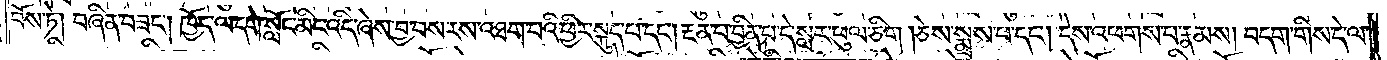བོས་ཏེ། བཞིན་བཟང༌། ཁྱོད་ལ་དགེ་སློང་མིང་འདི་ཞེས་བྱ་བས་རས་འཐག་པའི་ཕྱིར་སྐུད་པ་དང༌། རྔན་པ་བྱིན་པ་དེ་སླར་ཕུལ་ཅིག །ཅེས་སྨྲས་པ་དང༌། དེས་འཕགས་པ་རྣམས། བདག་གིས་དེ་ལ་
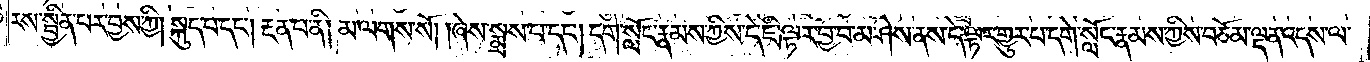རས་སྦྱིན་པར་བྱས་ཀྱི། སྐུད་པ་དང༌། རྔན་པ་ནི། མ་ལགས་སོ། །ཞེས་སྨྲས་པ་དང༌། དགེ་སློང་རྣམས་ཀྱིས་དེ་ཇི་ལྟར་བྱ་བ་མ་ཤེས་ནས་དེ་ལྟར་གྱུར་པ་དགེ་སློང་རྣམས་ཀྱིས་བཅོམ་ལྡན་འདས་ལ་
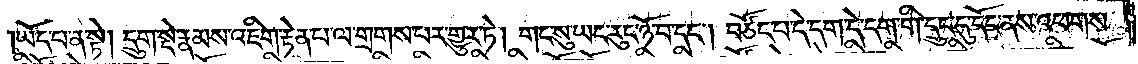ཡོད་པ་ན་སྟེ། དྲུག་སྡེ་རྣམས་འཇིག་རྟེན་པ་ལ་གྲགས་པར་གྱུར་ཏེ། གང་སུ་ཡང་རུང་ཉོ་བ་དང༌། བཙོང་པ་དེ་དག་དེ་དག་གི་དྲུང་དུ་དོང་ནས་འཕགས་
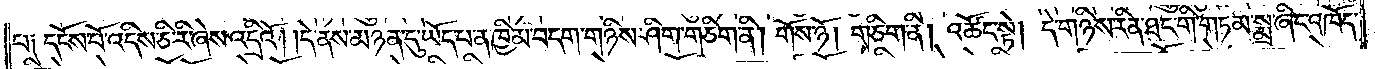པ༑ དངོས་པོ་འདིས་ཅི་རི་ཞེས་འདྲིའོ། །དེ་ནས་མཉན་དུ་ཡོད་པ་ན་ཁྱིམ་བདག་གཉིས་ཤིག་གཅིག་ནི། གོས་ཉོ། གཅིག་ནི། འཚོང་སྟེ། དེ་གཉིས་རིན་ཐང་གི་གཏམ་སྨྲ་ཞིང་འཁོད་
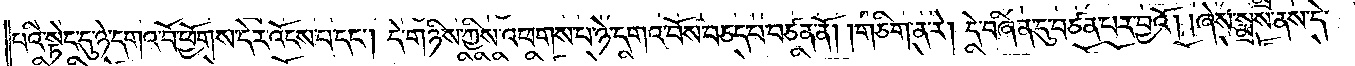པའི་སྟེང་དུ་ཉེ་དགའ་བོ་ཕྱོགས་དེར་འོངས་པ་དང༌། དེ་གཉིས་ཀྱིས་འཕགས་པ་ཉེ་དགའ་བོས་བཅད་པ་བཙན་ནོ། །གཅིག་ན་རེ། དེ་བཞིན་དུ་བཙན་པར་བྱའོ། །ཞེས་སྨྲས་ནས་དེ་
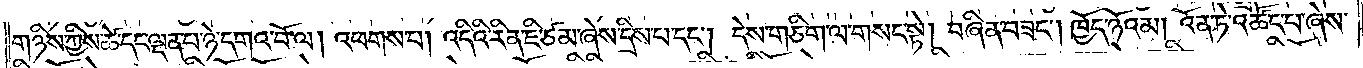གཉིས་ཀྱིས་ཚེ་དང་ལྡན་པ་ཉེ་དགའ་བོ་ལ། འཕགས་པ། འདིའི་རིན་ཇི་ཙམ་ཞེས་དྲིས་པ་དང༌། དེས་གཅིག་ལ་གསང་སྟེ། བཞིན་བཟང༌། ཁྱོད་ཉོའམ། འོན་ཏེ་འཚོང་པ་ཞེས་
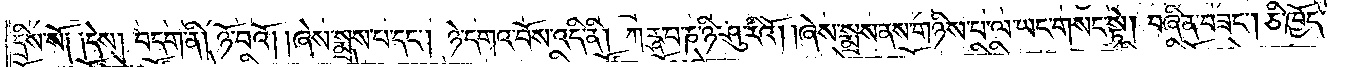དྲིས་སོ༑ ༑དེས། བདག་ནི། ཉོ་བའོ། །ཞེས་སྨྲས་པ་དང༌། ཉེ་དགའ་བོས་འདི་ནི། ཀཪྴ་པ་ཎ་ཉི་ཤུ་རིའོ། །ཞེས་སྨྲས་ནས་གཉིས་པ་ལ་ཡང་གསང་སྟེ། བཞིན་བཟང༌། ཅི་ཁྱོད་
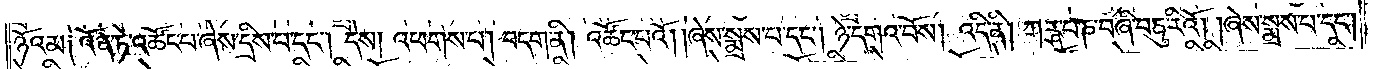ཉོའམ༑ འོན་ཏེ་འཚོང་པ་ཞེས་དྲིས་པ་དང༌། དེས། འཕགས་པ། བདག་ནི། འཚོང་པའོ། །ཞེས་སྨྲས་པ་དང༌། ཉེ་དགའ་བོས། འདི་ནི། ཀཪྴ་པ་ན་བཞི་བཅུ་རིའོ། །ཞེས་སྨྲས་པ་དང༌།
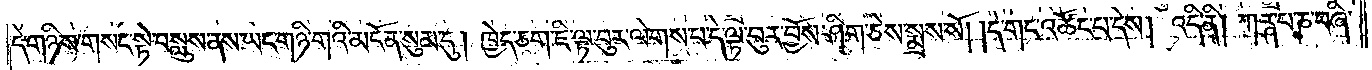དེ་གཉིས་གསང་སྟེ་བསླུས་ནས་ཡང་གཉི་གའི་མངོན་སུམ་དུ། ཁྱེད་ཅག་ཇི་ལྟ་བུར་ལེགས་པ་དེ་ལྟ་བུར་བྱོས་ཤིག་ཅེས་སྨྲས་སོ། །དེ་གང་འཚོང་བ་དེས། འདི་ནི། ཀརྴ་པ་ཎ་བཞི་
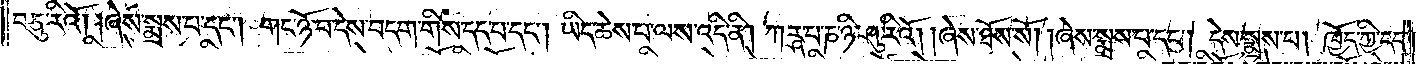བཅུ་རིའོ། །ཞེས་སྨྲས་པ་དང༌། གང་ཉོ་བ་དེས་བདག་གིས་དད་པ་དང༌། ཡིད་ཆེས་པ་ལས་འདི་ནི། ཀརྴ་པ་ཎ་ཉི་ཤུ་རིའོ། །ཞེས་ཐོས་སོ། །ཞེས་སྨྲས་པ་དང༌། དེས་སྨྲས་པ། ཁྱོད་ཀྱི་དད་
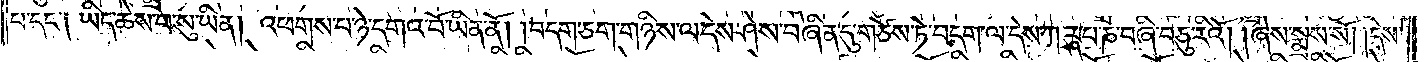པ་དང་༑ ཡིད་ཆེས་པ་སུ་ཡིན། འཕགས་པ་ཉེ་དགའ་བོ་ཡིན་ནོ། །བདག་ཅག་གཉིས་ལ་དེས་ཤེས་བཞིན་དུ་གཙེས་ཏེ་བདག་ལ་དེས་ཀརྴ་པ་ཎ་བཞི་བཅུ་རིའོ། །ཞེས་སྨྲས་སོ། །དེས་
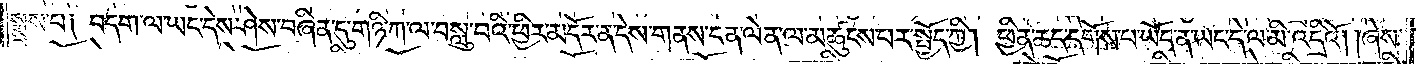སྨྲས་པ༑ བདག་ལ་ཡང་དེས་ཤེས་བཞིན་དུ་གཉི་ཀ་ལ་བསླུ་བའི་ཕྱིར་མདོར་ན་དེས་གནས་ངན་ལེན་ལ་མཚུངས་པར་སྤྱོད་ཀྱི། ཕྱིན་ཆད་དགོས་པ་ཡོད་ན་ཡང་དེ་ལ་མི་འདྲིའོ། །ཞེས་
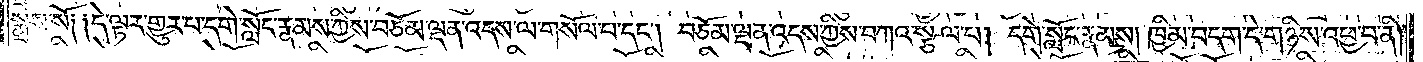སྨྲས་སོ༑ ༑དེ་ལྟར་གྱུར་པ་དགེ་སློང་རྣམས་ཀྱིས་བཅོམ་ལྡན་འདས་ལ་གསོལ་པ་དང༌། བཅོམ་ལྡན་འདས་ཀྱིས་བཀའ་སྩལ་པ། དགེ་སློང་རྣམས། ཁྱིམ་བདག་དེ་གཉིས་འཕྱ་བ་ནི།
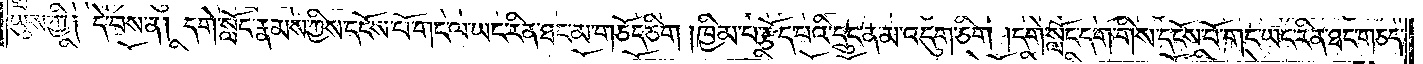ཡུས་ཀྱི༑ དེ་བས་ན། དགེ་སློང་རྣམས་ཀྱིས་དངོས་པོ་གང་ལ་ཡང་རིན་ཐང་མ་གཅོད་ཅིག །ཁྱིམ་པ་རྩོད་པའི་དྲུང་ནམ་འདུག་ཅིག །དགེ་སློང་དག་གིས་དངོས་པོ་གང་ཡང་རིན་ཐང་གཅད་
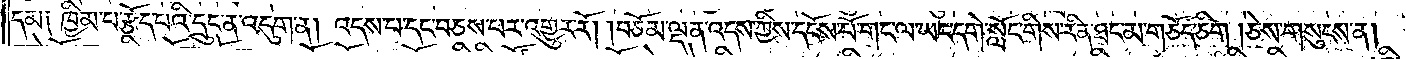དམ༑ ཁྱིམ་པ་རྩོད་པའི་དྲུང་ན་འདུག་ན། འདས་པ་དང་བཅས་པར་འགྱུར་རོ། །བཅོམ་ལྡན་འདས་ཀྱིས་དངོས་པོ་གང་ལ་ཡང་དགེ་སློང་གིས་རིན་ཐང་མ་གཅོད་ཅིག །ཅེས་གསུངས་ན།
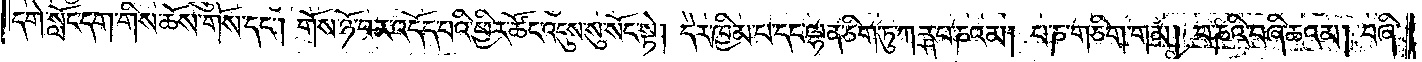དགེ་སློང་དག་གིས་ཆོས་གོས་དང༌། གོས་ཉོ་བར་འདོད་པའི་ཕྱིར་ཚོང་འདུས་སུ་སོང་སྟེ། དེར་ཁྱིམ་པ་དང་ལྷན་ཅིག་ཏུ་ཀརྴ་པ་ཎའམ། པ་ཎ་གཅིག་གམ། པ་ཎའི་བཞི་ཆའམ། བཞི་
